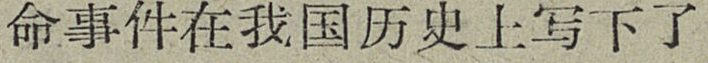命事件在我国历史上写下了
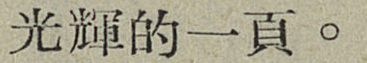光輝的一頁。
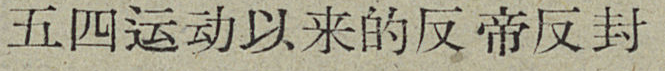五四运动以来的反帝反封
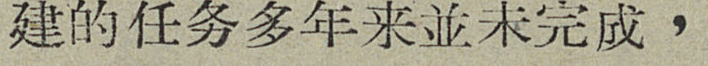建的任务多年来並未完成，
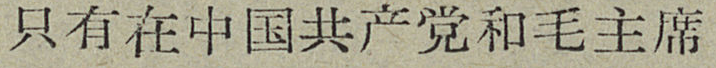只有在中国共产党和毛主席
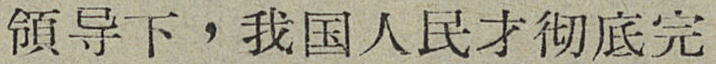領导下，我国人民才彻底完
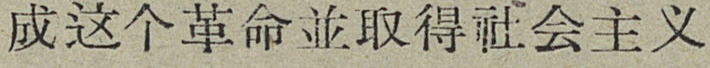成这个革命並取得社会主义
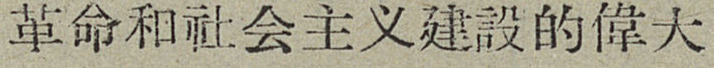革命和社会主义建設的偉大
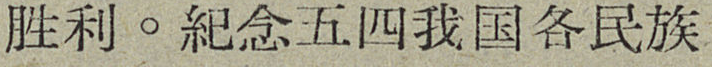胜利。紀念五四我国各民族
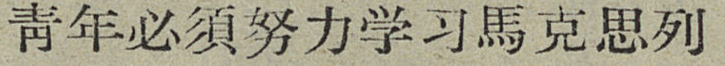靑年必須努力学习馬克思列
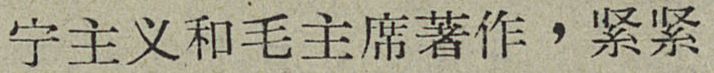宁主义和毛主席著作，紧紧
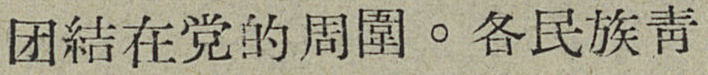团結在党的周圍。各民族靑
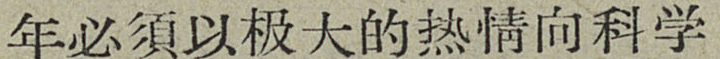年必須以极大的热情向科学
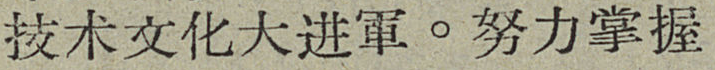技术文化大进軍。努力掌握
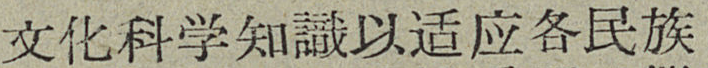文化科学知識以适应各民族
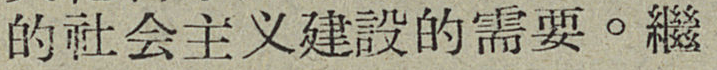的社会主义建設的需要。繼
